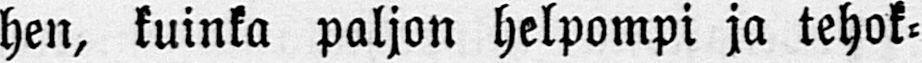hen, kuinka paljon helpompi ja tehok-
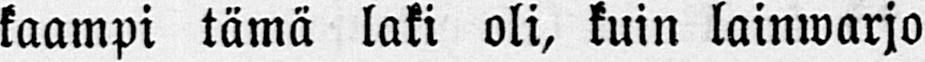kaampi tämä laki oli, kuin lainwarjo
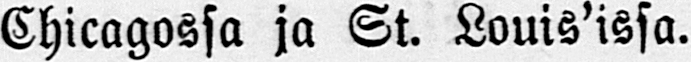Chicagossa ja St. Louis'issa.
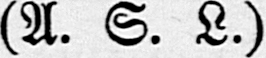(A. S. L.)
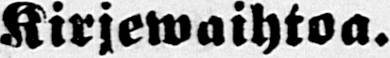Kirjewaihtoa.
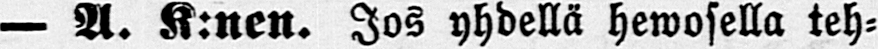— A. K:nen. Jos yhdellä hewosella teh-
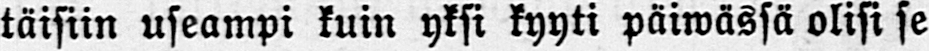täisiin useampi kuin yksi kyyti päiwässä olisi se
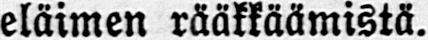eläimen rääkkäämistä.
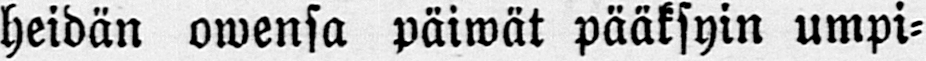heidän owensa päiwät pääksyin umpi-
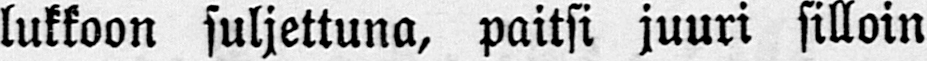lukkoon suljettuna, paitsi juuri silloin
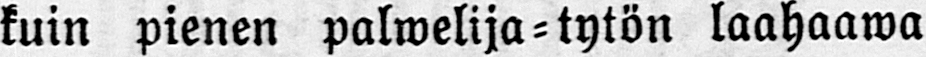kuin pienen palwelija-tytön laahaawa
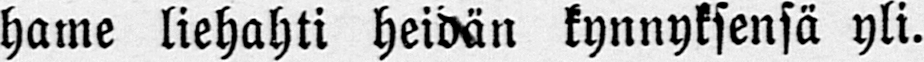hame liehahti heidän kynnyksensä yli.
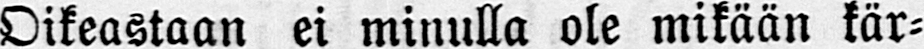Oikeastaan ei minulla ole mikään kär-
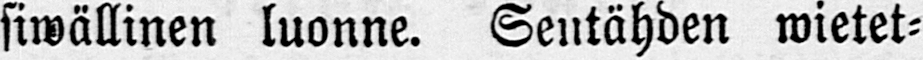siwällinen luonne. Sentähden wietet-
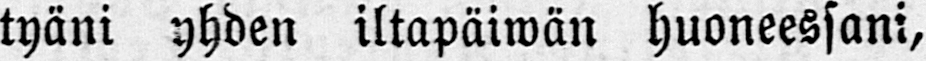tyäni yhden iltapäiwän huoneessani,
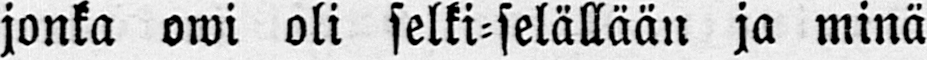jonka owi oli selki-selällään ja minä
